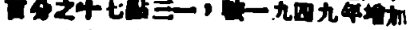百分之十七點三一，較一九四九年增加
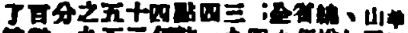了百分之五十四點四三：全省綿、山羊
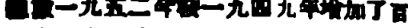總數一九五二年較一九四九年增加了百
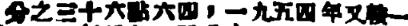分之三十六點六四，一九五四年又較一
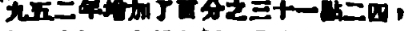九五二年增加了百分之三十一點二四，
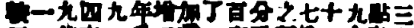較一九四九年增加了百分之七十九點三
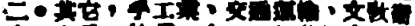二。其它，手工業、交通運輸、文敎衛
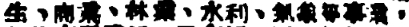生、商業、林業、水利、氣象等事業，
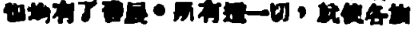也均有了發展。所有這一切，就使各族
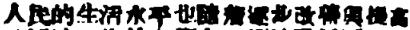人民的生活水平也隨着進步改善與提高
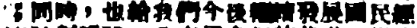；同時，也給我們今後繼續發展國民經
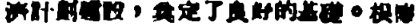濟計劃建設，奠定了良好的基礎。根據
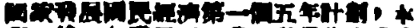國家發展國民經濟第一個五年計劃，本
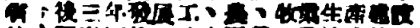省今後三年發展工、農、牧業生產建設
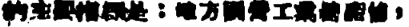的主要指標是：地方國營工業總產值，
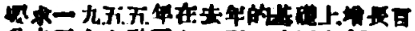要求一九五五年在去年的基礎上增長百
